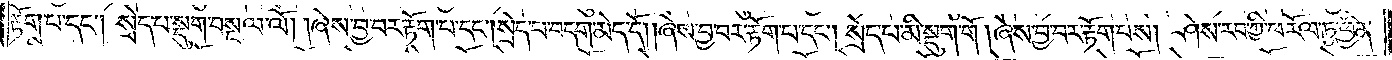རྟོག་པ་དང༌། སྲེད་པ་སྡུག་བསྔལ་ལོ། །ཞེས་བྱ་བར་རྟོག་པ་དང༌། སྲེད་པ་བདག་མེད་དོ། །ཞེས་བྱ་བར་རྟོག་པ་དང༌། སྲེད་པ་མི་སྡུག་གོ། ཞེས་བྱ་བར་རྟོག་པས། ཤེས་རབ་ཀྱི་ཕ་རོལ་ཏུ་ཕྱིན་
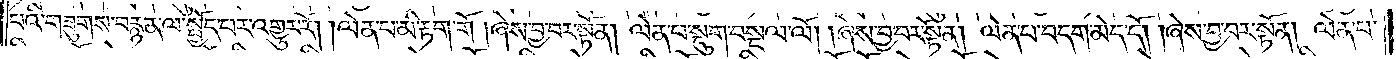པའི་གཟུགས་བརྙན་ལ་སྤྱོད་པར་འགྱུར་རོ། །ལེན་པ་མི་རྟག་གོ། ཞེས་བྱ་བར་སྟོན། ལེན་པ་སྡུག་བསྔལ་ལོ། །ཞེས་བྱ་བར་སྟོན། ལེན་པ་བདག་མེད་དོ། །ཞེས་བྱ་བར་སྟོན། ལེན་པ་
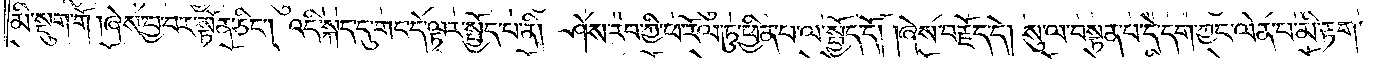མི་སྡུག་གོ། ཞེས་བྱ་བར་སྟོན་ཅིང༌། འདི་སྐད་དུ་གང་དེ་ལྟར་སྤྱོད་པ་ནི། ཤེས་རབ་ཀྱི་ཕ་རོལ་ཏུ་ཕྱིན་པ་ལ་སྤྱོད་དོ། །ཞེས་བརྗོད་དེ། སུ་ལ་བསྟན་པ་དེ་དག་ཀྱང་ལེན་པ་མི་རྟག་
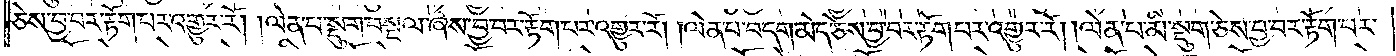ཅེས་བྱ་བར་རྟོག་པར་འགྱུར་རོ། །ལེན་པ་སྡུག་བསྔལ་ཞེས་བྱ་བར་རྟོག་པར་འགྱུར་རོ། །ལེན་པ་བདག་མེད་ཅེས་བྱ་བར་རྟོག་པར་འགྱུར་རོ། །ལེན་པ་མི་སྡུག་ཅེས་བྱ་བར་རྟོག་པར་
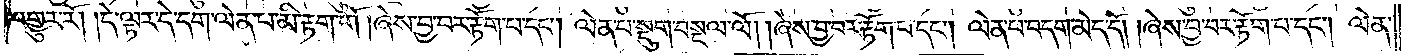འགྱུར་རོ། །དེ་ལྟར་དེ་དག་ལེན་པ་མི་རྟག་གོ། ཞེས་བྱ་བར་རྟོག་པ་དང༌། ལེན་པ་སྡུག་བསྔལ་ལོ། །ཞེས་བྱ་བར་རྟོག་པ་དང༌། ལེན་པ་བདག་མེད་དོ། །ཞེས་བྱ་བར་རྟོག་པ་དང༌། ལེན་
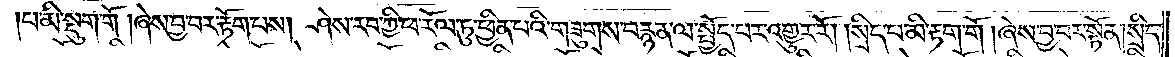པ་མི་སྡུག་གོ། ཞེས་བྱ་བར་རྟོག་པས། ཤེས་རབ་ཀྱི་ཕ་རོལ་ཏུ་ཕྱིན་པའི་གཟུགས་བརྙན་ལ་སྤྱོད་པར་འགྱུར་རོ། །སྲིད་པ་མི་རྟག་གོ། ཞེས་བྱ་བར་སྟོན། སྲིད་
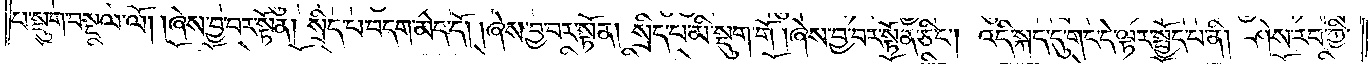པ་སྡུག་བསྔལ་ལོ། །ཞེས་བྱ་བར་སྟོན། སྲིད་པ་བདག་མེད་དོ། །ཞེས་བྱ་བར་སྟོན། སྲིད་པ་མི་སྡུག་གོ །ཞེས་བྱ་བར་སྟོན་ཅིང༌། འདི་སྐད་དུ་གང་དེ་ལྟར་སྤྱོད་པ་ནི། ཤེས་རབ་ཀྱི་
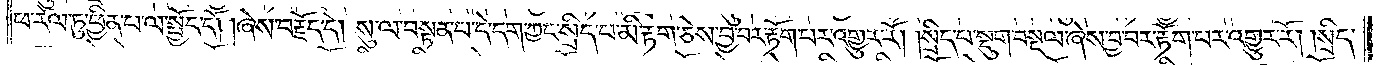ཕ་རོལ་ཏུ་ཕྱིན་པ་ལ་སྤྱོད་དོ། །ཞེས་བརྗོད་དེ། སུ་ལ་བསྟན་པ་དེ་དག་ཀྱང་སྲིད་པ་མི་རྟག་ཅེས་བྱ་བར་རྟོག་པར་འགྱུར་རོ། །སྲིད་པ་སྡུག་བསྔལ་ཞེས་བྱ་བར་རྟོག་པར་འགྱུར་རོ། །སྲིད་
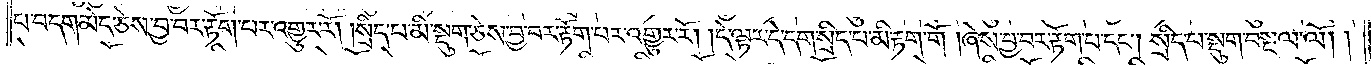པ་བདག་མེད་ཅེས་བྱ་བར་རྟོག་པར་འགྱུར་རོ། །སྲིད་པ་མི་སྡུག་ཅེས་བྱ་བར་རྟོག་པར་འགྱུར་རོ། །དེ་ལྟར་དེ་དག་སྲིད་པ་མི་རྟག་གོ། ཞེས་བྱ་བར་རྟོག་པ་དང༌། སྲིད་པ་སྡུག་བསྔལ་ལོ༎
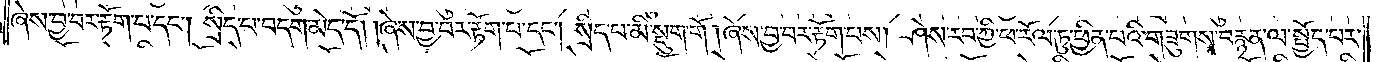ཞེས་བྱ་བར་རྟོག་པ་དང༌། སྲིད་པ་བདག་མེད་དོ། །ཞེས་བྱ་བར་རྟོག་པ་དང༌། སྲིད་པ་མི་སྡུག་གོ། ཞེས་བྱ་བར་རྟོག་པས། ཤེས་རབ་ཀྱི་ཕ་རོལ་ཏུ་ཕྱིན་པའི་གཟུགས་བརྙན་ལ་སྤྱོད་པར་
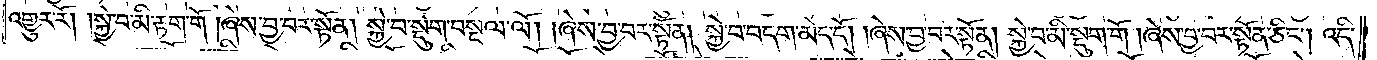འགྱུར་རོ། །སྐྱེ་བ་མི་རྟག་གོ། ཞེས་བྱ་བར་སྟོན། སྐྱེ་བ་སྡུག་བསྔལ་ལོ། །ཞེས་བྱ་བར་སྟོན། སྐྱེ་བ་བདག་མེད་དོ། །ཞེས་བྱ་བར་སྟོན། སྐྱེ་བ་མི་སྡུག་གོ། ཞེས་བྱ་བར་སྟོན་ཅིང༌། འདི་
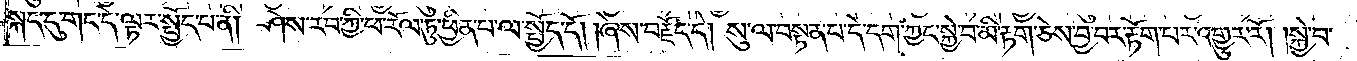སྐད་དུ་གང་དེ་ལྟར་སྤྱོད་པ་ནི། ཤེས་རབ་ཀྱི་ཕ་རོལ་ཏུ་ཕྱིན་པ་ལ་སྤྱོད་དོ། །ཞེས་བརྗོད་དོ། སུ་ལ་བསྟན་པ་དེ་དག་ཀྱང་སྐྱེ་བ་མི་རྟག་ཅེས་བྱ་བར་རྟོག་པར་འགྱུར་རོ། །སྐྱེ་བ་
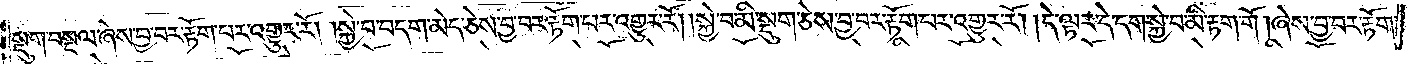སྡུག་བསྔལ་ཞེས་བྱ་བར་རྟོག་པར་འགྱུར་རོ། །སྐྱེ་བ་བདག་མེད་ཅེས་བྱ་བར་རྟོག་པར་འགྱུར་རོ། །སྐྱེ་བ་མི་སྡུག་ཅེས་བྱ་བར་རྟོག་པར་འགྱུར་རོ། །དེ་ལྟར་དེ་དག་སྐྱེ་བ་མི་རྟག་གོ། ཞེས་བྱ་བར་རྟོག་
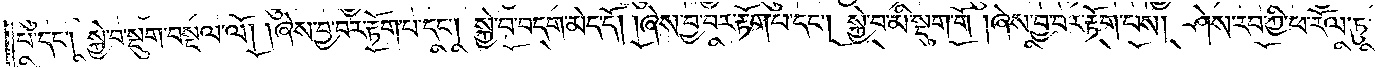པ་དང༌། སྐྱེ་བ་སྡུག་བསྔལ་ལོ། །ཞེས་བྱ་བར་རྟོག་པ་དང༌། སྐྱེ་བ་བདག་མེད་དོ། །ཞེས་བྱ་བར་རྟོག་པ་དང༌། སྐྱེ་བ་མི་སྡུག་གོ། ཞེས་བྱ་བར་རྟོག་པས། ཤེས་རབ་ཀྱི་ཕ་རོལ་ཏུ་
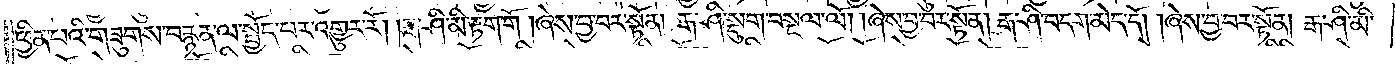ཕྱིན་པའི་གཟུགས་བརྙན་ལ་སྤྱོད་པར་འགྱུར་རོ། །རྒ་ཤི་མི་རྟག་གོ། ཞེས་བྱ་བར་སྟོན། རྒ་ཤི་སྡུག་བསྔལ་ལོ། །ཞེས་བྱ་བར་སྟོན། རྒ་ཤི་བདག་མེད་དོ། །ཞེས་བྱ་བར་སྟོན། རྒ་ཤི་མི་
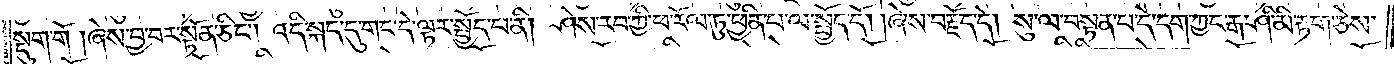སྡུག་གོ། ཞེས་བྱ་བར་སྟོན་ཅིང༌། འདི་སྐད་དུ་གང་དེ་ལྟར་སྤྱོད་པ་ནི། ཤེས་རབ་ཀྱི་ཕ་རོལ་ཏུ་ཕྱིན་པ་ལ་སྤྱོད་དོ། །ཞེས་བརྗོད་དེ། སུ་ལ་བསྟན་པ་དེ་དག་ཀྱང་རྒ་ཤི་མི་རྟག་ཅེས་
